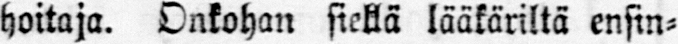hoitaja. Onkohan siellä lääkäriltä ensin-
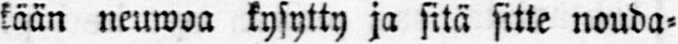kään neuwoa kysytty ja sitä sitte nouda-
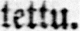teltu.
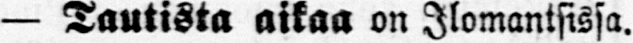— Tautista aikaa on Ilomantsissa.
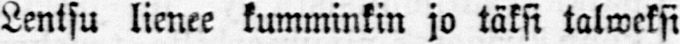Lentsu lienee kumminkin jo täksi talweksi
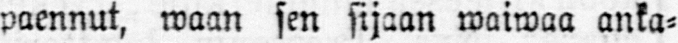paennut, waan sen sijaan waiwaa anka-
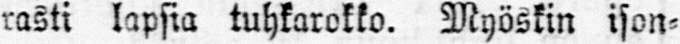rasti lapsia tuhkarokko. Myöskin ison-
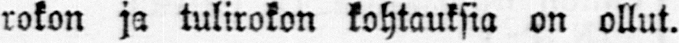rokon ja tulirokon kohtauksia on ollut.
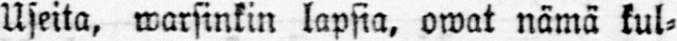Useita, warsinkin lapsia, owat nämä kul-
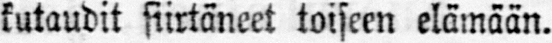kutaudit siirtäneet toiseen elämään.
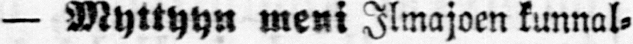— Myttyyn meni Ilmajoen kunnal-
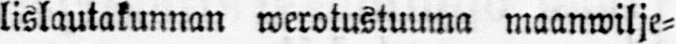lislautakunnan werotustuuma maanwilje-
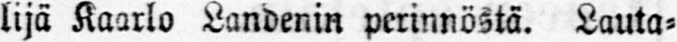lijä Kaarlo Landenin perinnöstä. Lauta-
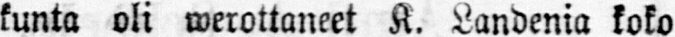kunta oli werottaneet K. Landenia koko
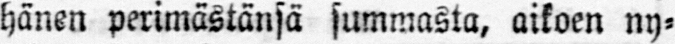hänen perimästänsä summasta, aikoen ny-
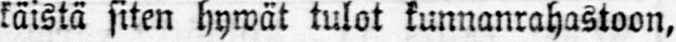käistä siten hywät tulot kunnanrahastoon,
